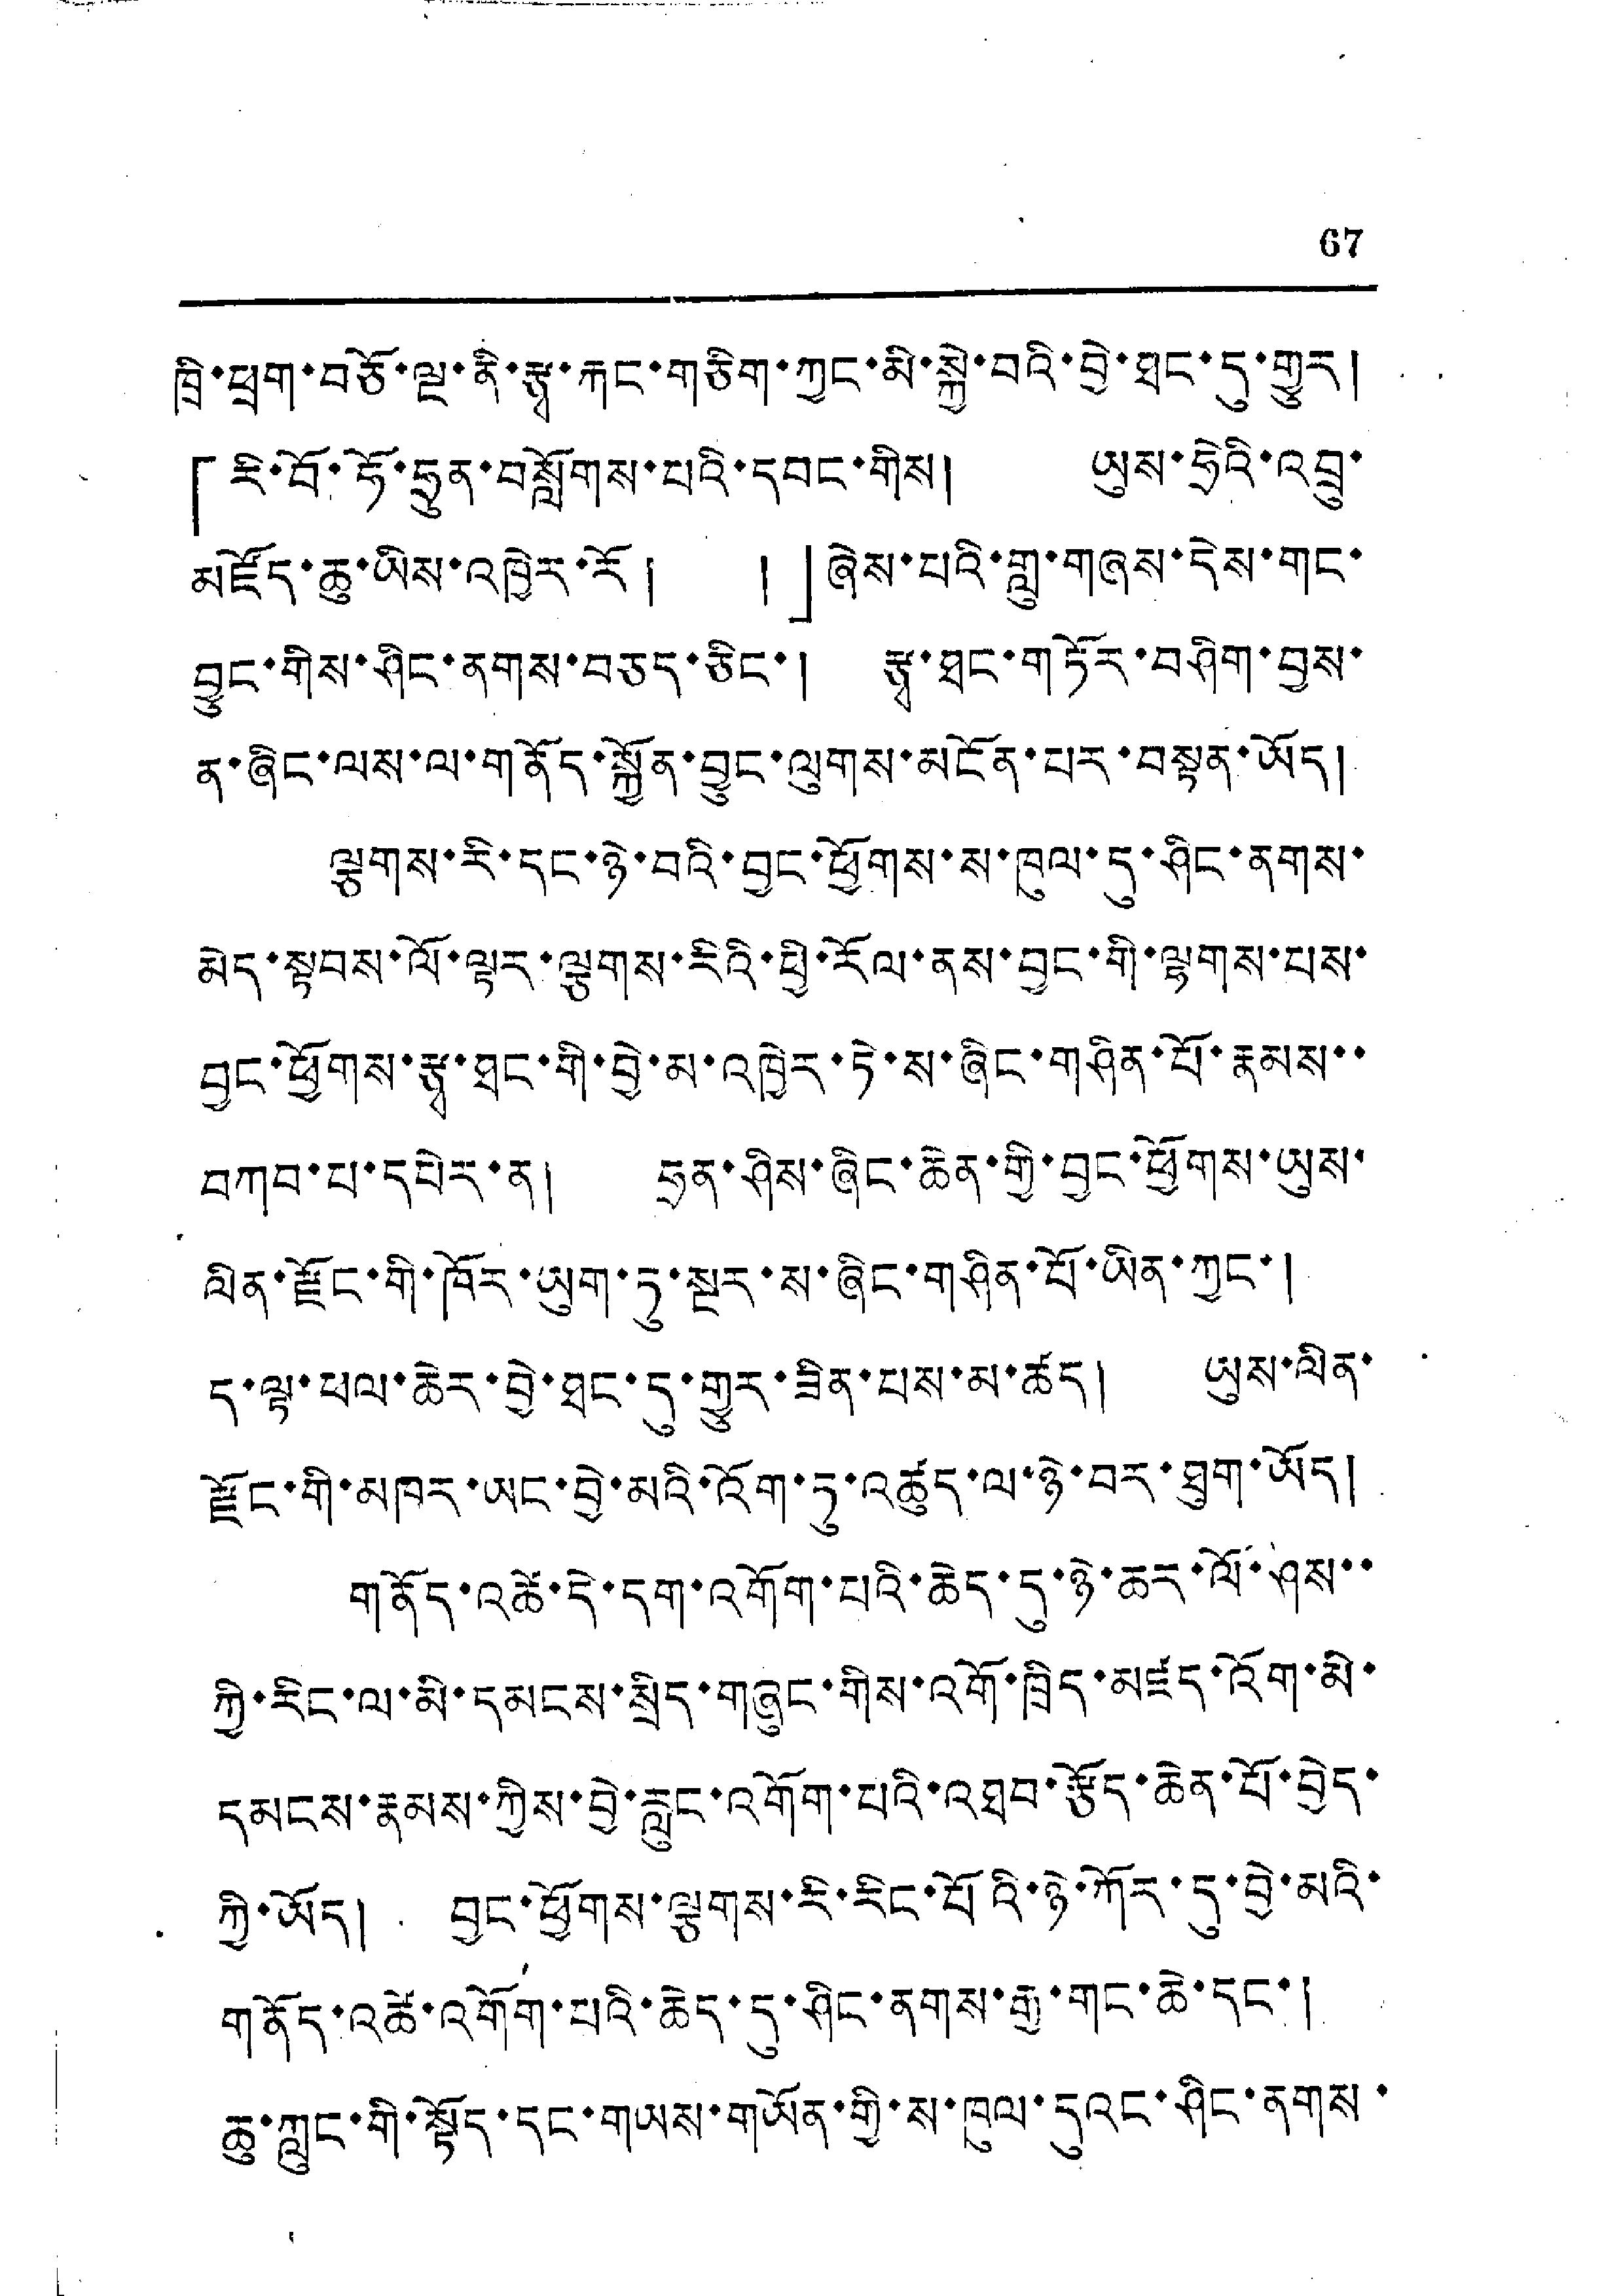67
ཁྲི་ཕྲག་བཅོ་ལྔ་ནི་རྩྭ་རྐང་གཅིག་ཀྱང་མི་སྐྱེ་བའི་བྱེ་ཐང་དུ་གྱུར།
「རི་བོ་ཧོ་ཧྲུན་བསློགས་པའི་དབང་གིས། ཡུས་ཧྲེའི་འབྲུ་
མཛོད་ཆུ་ཡིས་འཁྱེར་རོ། །」ཞེས་པའི་གླུ་གཞས་དེས་གང་
བྱུང་གིས་ཤིང་ནགས་བཅད་ཅིང་། རྩྭ་ཐང་གཏོར་བཤིག་བྱས་
ན་ཞིང་ལས་ལ་གནོད་སྐྱོན་བྱུང་ལུགས་མངོན་པར་བསྟན་ཡོད།
ལྕགས་རི་དང་ཉེ་བའི་བྱང་ཕྱོགས་ས་ཁུལ་དུ་ཤིང་ནགས་
མེད་སྟབས་ལོ་ལྟར་ལྕགས་རིའི་ཕྱི་རོལ་ནས་བྱང་གི་ལྷགས་པས་
བྱང་ཕྱོགས་རྩྭ་ཐང་གི་བྱེ་མ་འཁྱེད་ཏེ་ས་ཞིང་གཤིན་པོ་རྣམས་་
བཀབ་པ་དཔེར་ན། ཧྲན་ཤིས་ཞིང་ཆེན་གྱི་བྱང་ཕྱོགས་ཡུས་
ལིན་རྫོང་གི་ཁོར་ཡུག་ཏུ་སྔར་ས་ཞིང་གཤིན་པོ་ཡིན་ཀྱང་།
ད་ལྟ་ཕལ་ཆེར་བྱེ་ཐང་དུ་གྱུར་ཟིན་པས་མ་ཚད། ཡུས་ལིན་
རྫོང་གི་མཁར་ཡང་བྱེ་མའི་འོག་ཏུ་འཚུད་ལ་ཉེ་བར་ཐུག་ཡོད།
གནོད་འཚེ་དེ་དག་འགོག་པའི་ཆེད་དུ་ཉེ་ཆར་ལོ་ཤས་་
ཀྱི་རིང་ལ་མི་དམངས་སྲིད་གཞུང་གིས་འགོ་ཁྲིད་མཛད་འོག་མི་
དམངས་རྣམས་ཀྱིས་བྱེ་རླུང་འགོག་པའི་འཐབ་རྩོད་ཆེན་པོ་བྱེད་
ཀྱི་ཡོད། བྱང་ཕྱོགས་ལྕགས་རི་རིང་པོའི་ཉེ་ཀོར་དུ་བྱེ་མའི་
གནོད་འཚེ་འགོག་པའི་ཆེད་དུ་ཤིང་ནགས་རྒྱ་གང་ཆེ་དང་།
ཆུ་ཀླུང་གི་སྟོད་དང་གཡས་གཡོན་གྱི་ས་ཁུལ་དུའང་ཤིང་ནགས་
